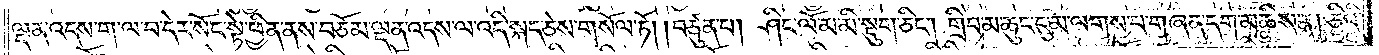ལྡན་འདས་ག་ལ་བ་དེར་སོང་སྟེ་ཕྱིན་ནས་བཅོམ་ལྡན་འདས་ལ་འདི་སྐད་ཅེས་གསོལ་ཏོ། །བཙུན་པ། ཤིང་ལོ་མ་མི་སྡུག་ཅིང༌། གྲིབ་མ་ཆུང་ངུ་མ་ལགས་པ་གཞན་དག་མཆིས་ན། ཅིའི་
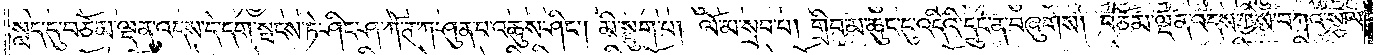སླད་དུ་བཅོམ་ལྡན་འདས་དེ་དག་སྤངས་ཏེ་ཤིང་ཤ་ཀོ་ཊ་ཀ་ཤུན་པ་འཆུས་ཤིང༌། མི་སྡུག་པ། ལོ་མ་སྲབ་པ། གྲིབ་མ་ཆུང་ངུ་འདིའི་དྲུང་ན་བཞུགས། བཅོམ་ལྡན་འདས་ཀྱིས་བཀའ་སྩལ་
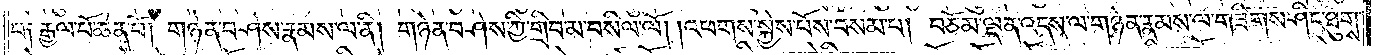པ། རྒྱལ་པོ་ཆེན་པོ། གཉེན་བཤེས་རྣམས་ལ་ནི། གཉེན་བཤེས་ཀྱི་གྲིབ་མ་བསིལ་ལོ། །འཕགས་སྐྱེས་པོས་བསམ་པ། བཅོམ་ལྡན་འདས་ལ་གཉེན་རྣམས་ལ་གཟིགས་ཤིང་ཐུགས་
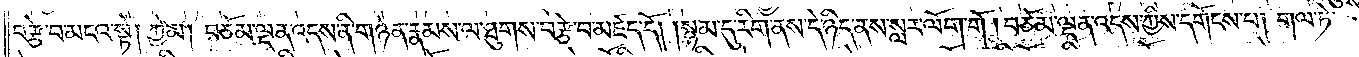བརྩེ་བ་མངའ་སྟེ། ཀྱེ་མ། བཅོམ་ལྡན་འདས་ནི་གཉེན་རྣམས་ལ་ཐུགས་བརྩེ་བ་མཛད་དོ། །སྙམ་དུ་རིག་ནས་དེ་ཉིད་ནས་སླར་ལོག་གོ །བཅོམ་ལྡན་འདས་ཀྱིས་དགོངས་པ། གལ་ཏེ་
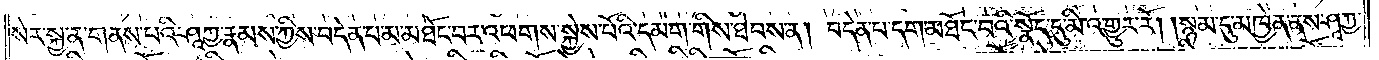སེར་སྐྱ་ན་གནས་པའི་ཤཱཀྱ་རྣམས་ཀྱིས་བདེན་པ་མ་མཐོང་བར་འཕགས་སྐྱེས་པོའི་དམག་གིས་ཐེབས་ན། བདེན་པ་དག་མཐོང་བའི་སྣོད་དུ་མི་འགྱུར་རོ། །སྙམ་དུ་མཁྱེན་ནས་ཤཱཀྱ་
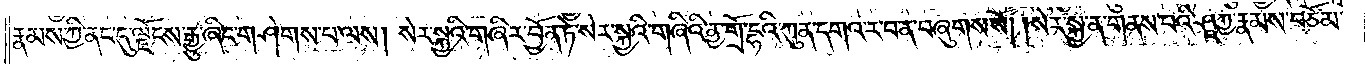རྣམས་ཀྱི་ནང་དུ་ལྗོངས་རྒྱུ་ཞིང་གཤེགས་པ་ལས། སེར་སྐྱའི་གཞིར་བྱོན་ཏེ་སེར་སྐྱའི་གཞིའི་ནྱ་གྲོ་དྷའི་ཀུན་དགའ་ར་བ་ན་བཞུགས་སོ། །སེར་སྐྱ་ན་གནས་པའི་ཤཱཀྱ་རྣམས་བཅོམ་
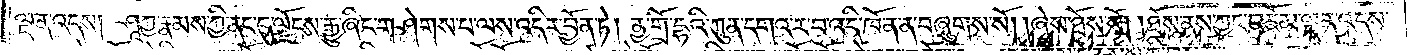ལྡན་འདས། ཤཱཀྱ་རྣམས་ཀྱི་ནང་དུ་ལྗོངས་རྒྱུ་ཞིང་གཤེགས་པ་ལས་འདིར་བྱོན་ཏེ། ནྱ་གྲོ་དྷའི་ཀུན་དགའ་ར་བ་འདི་ཁོ་ན་ན་བཞུགས་སོ། །ཞེས་ཐོས་སོ། །ཐོས་ནས་ཀྱང་བཅོམ་ལྡན་འདས་
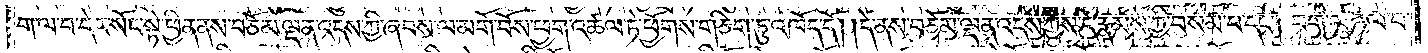ག་ལ་བ་དེར་སོང་སྟེ་ཕྱིན་ནས་བཅོམ་ལྡན་འདས་ཀྱི་ཞབས་ལ་མགོ་བོས་ཕྱག་འཚལ་ཏེ་ཕྱོགས་གཅིག་ཏུ་འཁོད་དོ། །དེ་ནས་བཅོམ་ལྡན་འདས་ཀྱིས་དེ་རྣམས་ཀྱི་བསམ་པ་དང༌། བག་ལ་ཉལ་བ་
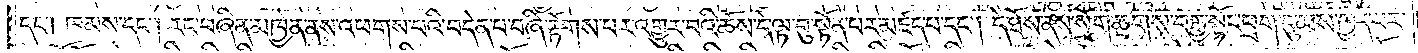དང༌། ཁམས་དང༌། རང་བཞིན་མཁྱེན་ནས་འཕགས་པའི་བདེན་པ་བཞི་རྟོགས་པར་འགྱུར་བའི་ཆོས་དེ་ལྟ་བུ་སྟོན་པར་མཛད་པ་དང༌། དེ་ཐོས་ནས་སྲོག་ཆགས་བརྒྱ་སྟོང་ཕྲག་དུ་མས་ཁྱད་པར་
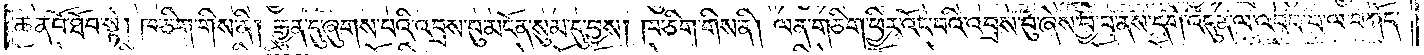ཆེན་པོ་ཐོབ་སྟེ། ཁ་ཅིག་གིས་ནི། རྒྱུན་དུ་ཞུགས་པའི་འབྲས་བུ་མངོན་སུམ་དུ་བྱས། ཁ་ཅིག་གིས་ནི། ལན་གཅིག་ཕྱིར་འོང་བའི་འབྲས་བུ་ཞེས་བྱ་བ་ནས་དགེ་འདུན་ལ་འབབ་པ་ལ་བཀོད་
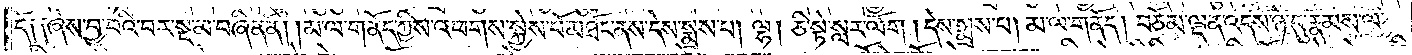དོ། །ཞེས་བྱ་བའི་བར་སྔ་མ་བཞིན་ནོ། །མ་ལ་གནོད་ཀྱིས་འཕགས་སྐྱེས་པོ་མཐོང་ནས་དེས་སྨྲས་པ། ལྷ། ཅི་སྟེ་སླར་ལོག །དེས་སྨྲས་པ། མ་ལ་གནོད། བཅོམ་ལྡན་འདས་ཉེ་དུ་རྣམས་ལ་
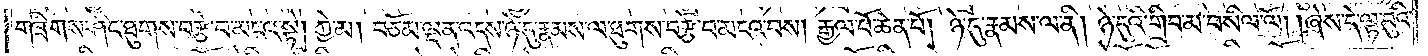གཟིགས་ཤིང་ཐུགས་བརྩེ་བ་མངའ་སྟེ། ཀྱེ་མ། བཅོམ་ལྡན་འདས་ཉེ་དུ་རྣམས་ལ་ཐུགས་བརྩེ་བ་མངའ་བས། རྒྱལ་པོ་ཆེན་པོ། ཉེ་དུ་རྣམས་ལ་ནི། ཉེ་དུའི་གྲིབ་མ་བསིལ་ལོ། །ཞེས་དེ་ལྟ་བུའི་
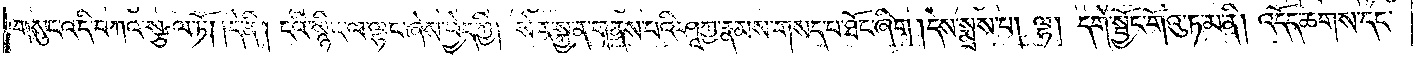གསུང་འདི་བཀའ་སྩལ་ཏོ། །དེ་ནི། ངའི་སྙིང་ལ་ལྷང་ཞེས་བྱེད་ཀྱི། སེར་སྐྱ་ན་གནས་པའི་ཤཱཀྱ་རྣམས་གསད་པ་ཐོང་ཞིག །དེས་སྨྲས་པ། ལྷ། དགེ་སྦྱོང་གོའུ་ཏ་མ་ནི། འདོད་ཆགས་དང་
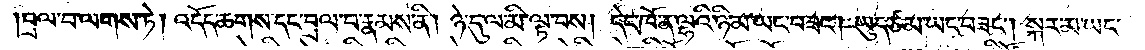བྲལ་བ་ལགས་ཏེ། འདོད་ཆགས་དང་བྲལ་བ་རྣམས་ནི། ཉེ་དུ་ལ་མི་ལྟ་བས། དེང་ཁོ་ན་ལྷའི་ཉི་མ་ཡང་བཟང༌། ཡུད་ཙམ་ཡང་བཟང༌། སྐར་མ་ཡང་
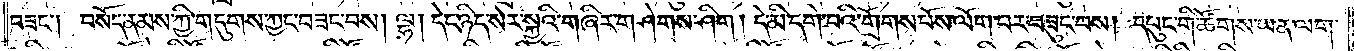བཟང༌། བསོད་ནམས་ཀྱི་གདུགས་ཀྱང་བཟང་བས། ལྷ། དེང་ཉིད་སེར་སྐྱའི་གཞིར་གཤེགས་ཤིག །དེ་མི་དགེ་བའི་གྲོགས་པོས་ལོག་པར་བཟུང་བས། དཔུང་གི་ཚོགས་ཡན་ལག་
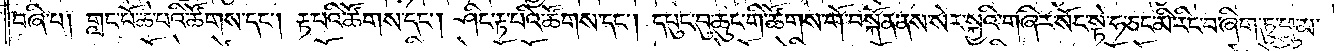བཞི་པ། གླང་པོ་ཆེ་པའི་ཚོགས་དང༌། རྟ་པའི་ཚོགས་དང༌། ཤིང་རྟ་པའི་ཚོགས་དང༌། དཔུང་བུ་ཆུང་གི་ཚོགས་གོ་བསྐོན་ནས་སེར་སྐྱའི་གཞིར་སོང་སྟེ་ཧ་ཅང་མི་རིང་བ་ཞིག་ཏུ་ཕྲུ་མ་
